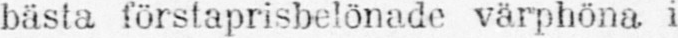bästa förstaprisbelönade värphöna i
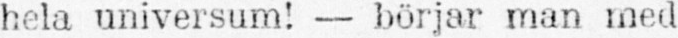hela universum! — börjar man med
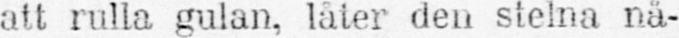att rulla gulan, låter den stelna nä-
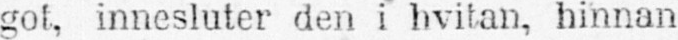got, innesluter den i hvitan, hinnan
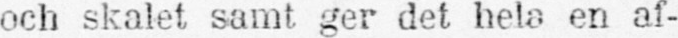och skalet samt ger det hela en af-
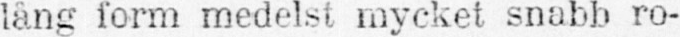lång form medelst mycket snabh ro-
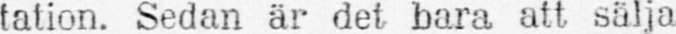tation. Sedan är det bara att sälja
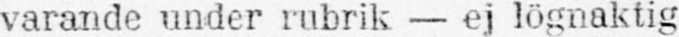varande under rubrik — ej lögnaktig
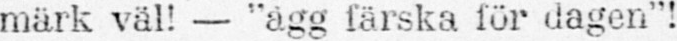märk väll — “agg färska för dagen“!
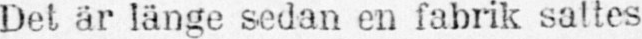Det är länge sedan en fabrik saltes
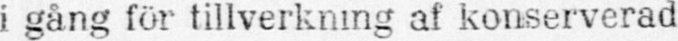i gång för tillverkning af konserverad
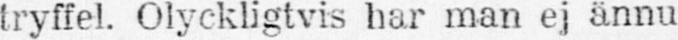tryffel. Olyckligtvis har man ej ännu
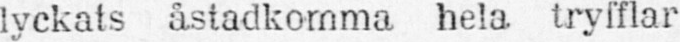lyckats åstadkomma hela tryfflar
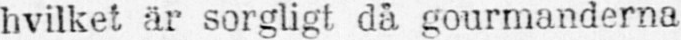hvilket är sorgligt då gourmanderna
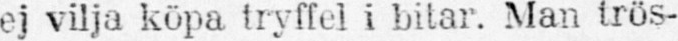ej vilja köpa tryffel i bitar. Man trös-
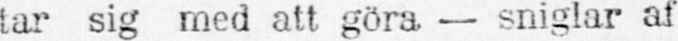tar sig med att göra — sniglar af
